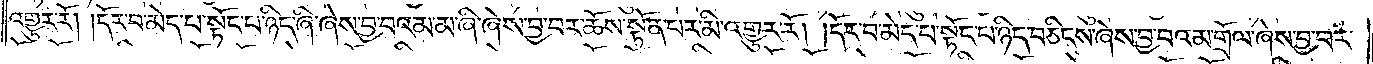འགྱུར་རོ། །དོར་བ་མེད་པ་སྟོང་པ་ཉིད་ཞི་ཞེས་བྱ་བའམ་མ་ཞི་ཞེས་བྱ་བར་ཆོས་སྟོན་པར་མི་འགྱུར་རོ། །དོར་བ་མེད་པ་སྟོང་པ་ཉིད་བཅིངས་ཞེས་བྱ་བའམ་གྲོལ་ཞེས་བྱ་བར་
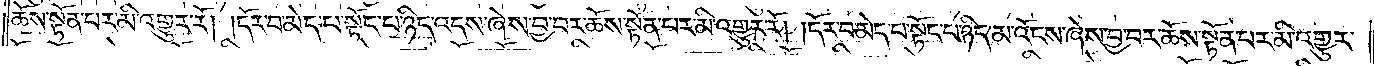ཆོས་སྟོན་པར་མི་འགྱུར་རོ། །དོར་བ་མེད་པ་སྟོང་པ་ཉིད་འདས་ཞེས་བྱ་བར་ཆོས་སྟོན་པར་མི་འགྱུར་རོ། །དོར་བ་མེད་པ་སྟོང་པ་ཉིད་མ་འོངས་ཞེས་བྱ་བར་ཆོས་སྟོན་པར་མི་འགྱུར་
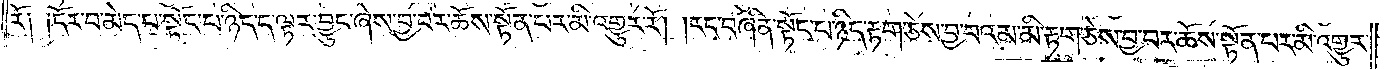རོ༑ ༑དོར་བ་མེད་པ་སྟོང་པ་ཉིད་ད་ལྟར་བྱུང་ཞེས་བྱ་བར་ཆོས་སྟོན་པར་མི་འགྱུར་རོ། །རང་བཞིན་སྟོང་པ་ཉིད་རྟག་ཅེས་བྱ་བའམ་མི་རྟག་ཅེས་བྱ་བར་ཆོས་སྟོན་པར་མི་འགྱུར་
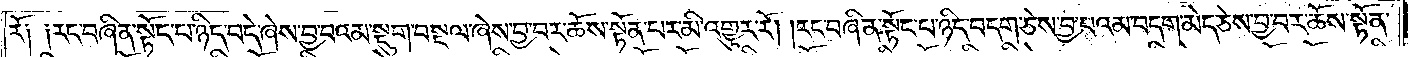རོ༑ ༑རང་བཞིན་སྟོང་པ་ཉིད་བདེ་ཞེས་བྱ་བའམ་སྡུག་བསྔལ་ཞེས་བྱ་བར་ཆོས་སྟོན་པར་མི་འགྱུར་རོ། །རང་བཞིན་སྟོང་པ་ཉིད་བདག་ཅེས་བྱ་བའམ་བདག་མེད་ཅེས་བྱ་བར་ཆོས་སྟོན་
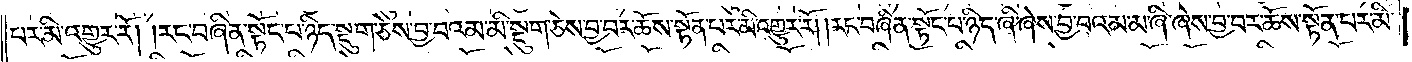པར་མི་འགྱུར་རོ། །རང་བཞིན་སྟོང་པ་ཉིད་སྡུག་ཅེས་བྱ་བའམ་མི་སྡུག་ཅེས་བྱ་བར་ཆོས་སྟོན་པར་མི་འགྱུར་རོ། །རང་བཞིན་སྟོང་པ་ཉིད་ཞི་ཞེས་བྱ་བའམ་མ་ཞི་ཞེས་བྱ་བར་ཆོས་སྟོན་པར་མི་
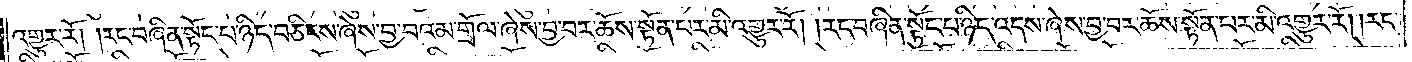འགྱུར་རོ། །རང་བཞིན་སྟོང་པ་ཉིད་བཅིངས་ཞེས་བྱ་བའམ་གྲོལ་ཞེས་བྱ་བར་ཆོས་སྟོན་པར་མི་འགྱུར་རོ། །རང་བཞིན་སྟོང་པ་ཉིད་འདས་ཞེས་བྱ་བར་ཆོས་སྟོན་པར་མི་འགྱུར་རོ། །རང་
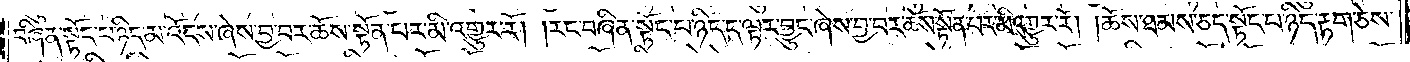བཞིན་སྟོང་པ་ཉིད་མ་འོངས་ཞེས་བྱ་བར་ཆོས་སྟོན་པར་མི་འགྱུར་རོ། །རང་བཞིན་སྟོང་པ་ཉིད་ད་ལྟར་བྱུང་ཞེས་བྱ་བར་ཆོས་སྟོན་པར་མི་འགྱུར་རོ། །ཆོས་ཐམས་ཅད་སྟོང་པ་ཉིད་རྟག་ཅེས་
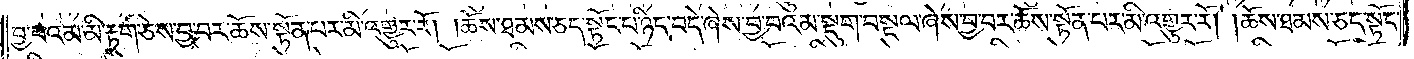བྱ་བའམ་མི་རྟག་ཅེས་བྱ་བར་ཆོས་སྟོན་པར་མི་འགྱུར་རོ། །ཆོས་ཐམས་ཅད་སྟོང་པ་ཉིད་བདེ་ཞེས་བྱ་བའམ་སྡུག་བསྔལ་ཞེས་བྱ་བར་ཆོས་སྟོན་པར་མི་འགྱུར་རོ། །ཆོས་ཐམས་ཅད་སྟོང་
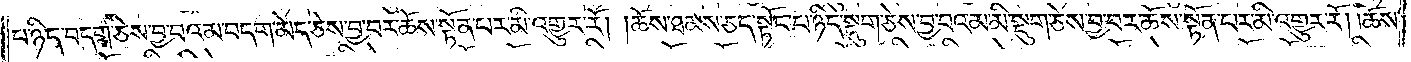པ་ཉིད་བདག་ཅེས་བྱ་བའམ་བདག་མེད་ཅེས་བྱ་བར་ཆོས་སྟོན་པར་མི་འགྱུར་རོ། །ཆོས་ཐམས་ཅད་སྟོང་པ་ཉིད་སྡུག་ཅེས་བྱ་བའམ་མི་སྡུག་ཅེས་བྱ་བར་ཆོས་སྟོན་པར་མི་འགྱུར་རོ། །ཆོས་
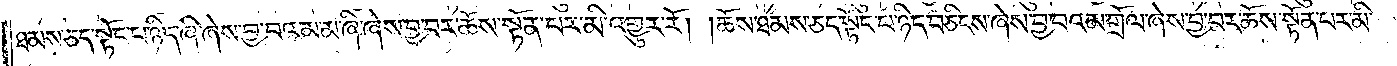ཐམས་ཅད་སྟོང་པ་ཉིད་ཞི་ཞེས་བྱ་བའམ་མ་ཞི་ཞེས་བྱ་བར་ཆོས་སྟོན་པར་མི་འགྱུར་རོ། །ཆོས་ཐམས་ཅད་སྟོང་པ་ཉིད་བཅིངས་ཞེས་བྱ་བའམ་གྲོལ་ཞེས་བྱ་བར་ཆོས་སྟོན་པར་མི་
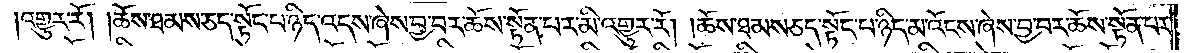འགྱུར་རོ། །ཆོས་ཐམས་ཅད་སྟོང་པ་ཉིད་འདས་ཞེས་བྱ་བར་ཆོས་སྟོན་པར་མི་འགྱུར་རོ། །ཆོས་ཐམས་ཅད་སྟོང་པ་ཉིད་མ་འོངས་ཞེས་བྱ་བར་ཆོས་སྟོན་པར་
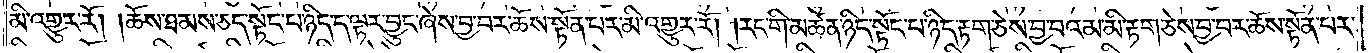མི་འགྱུར་རོ། །ཆོས་ཐམས་ཅད་སྟོང་པ་ཉིད་ད་ལྟར་བྱུང་ཞེས་བྱ་བར་ཆོས་སྟོན་པར་མི་འགྱུར་རོ། །རང་གི་མཚན་ཉིད་སྟོང་པ་ཉིད་རྟག་ཅེས་བྱ་བའམ་མི་རྟག་ཅེས་བྱ་བར་ཆོས་སྟོན་པར་
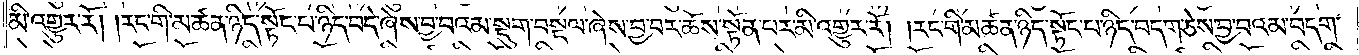མི་འགྱུར་རོ། །རང་གི་མཚན་ཉིད་སྟོང་པ་ཉིད་བདེ་ཞེས་བྱ་བའམ་སྡུག་བསྔལ་ཞེས་བྱ་བར་ཆོས་སྟོན་པར་མི་འགྱུར་རོ། །རང་གི་མཚན་ཉིད་སྟོང་པ་ཉིད་བདག་ཅེས་བྱ་བའམ་བདག་
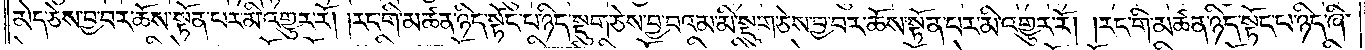མེད་ཅེས་བྱ་བར་ཆོས་སྟོན་པར་མི་འགྱུར་རོ། །རང་གི་མཚན་ཉིད་སྟོང་པ་ཉིད་སྡུག་ཅེས་བྱ་བའམ་མི་སྡུག་ཅེས་བྱ་བར་ཆོས་སྟོན་པར་མི་འགྱུར་རོ། །རང་གི་མཚན་ཉིད་སྟོང་པ་ཉིད་ཞི་
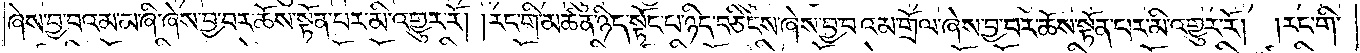ཞེས་བྱ་བའམ་མ་ཞི་ཞེས་བྱ་བར་ཆོས་སྟོན་པར་མི་འགྱུར་རོ། །རང་གི་མཚན་ཉིད་སྟོང་པ་ཉིད་བཅིངས་ཞེས་བྱ་བའམ་གྲོལ་ཞེས་བྱ་བར་ཆོས་སྟོན་པར་མི་འགྱུར་རོ། །རང་གི་
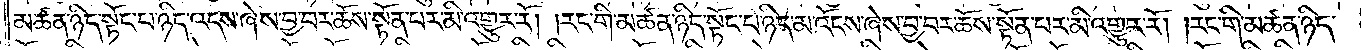མཚན་ཉིད་སྟོང་པ་ཉིད་འདས་ཞེས་བྱ་བར་ཆོས་སྟོན་པར་མི་འགྱུར་རོ། །རང་གི་མཚན་ཉིད་སྟོང་པ་ཉིད་མ་འོངས་ཞེས་བྱ་བར་ཆོས་སྟོན་པར་མི་འགྱུར་རོ། །རང་གི་མཚན་ཉིད་
